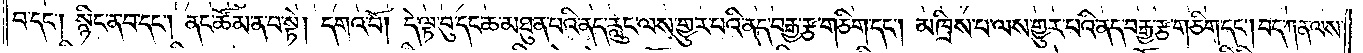བ་དང༌། སྙིང་ན་བ་དང༌། ནང་ཚོམ་ན་བ་སྟེ། དགའ་བོ། དེ་ལྟ་བུ་དང་ཆ་མཐུན་པའི་ནད་རླུང་ལས་གྱུར་པའི་ནད་བརྒྱ་རྩ་གཅིག་དང༌། མཁྲིས་པ་ལས་གྱུར་པའི་ནད་བརྒྱ་རྩ་གཅིག་དང༌། བད་ཀན་ལས་
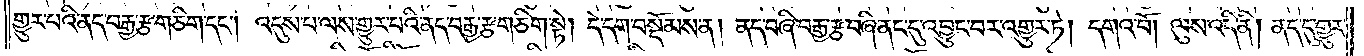གྱུར་པའི་ནད་བརྒྱ་རྩ་གཅིག་དང༌། འདུས་པ་ལས་གྱུར་པའི་ནད་བརྒྱ་རྩ་གཅིག་སྟེ། དེ་དག་བསྡོམས་ན། ནད་བཞི་བརྒྱ་རྩ་བཞི་ནང་དུ་འབྱུང་བར་འགྱུར་ཏེ། དགའ་བོ། ལུས་འདི་ནི། ནད་དུ་གྱུར་
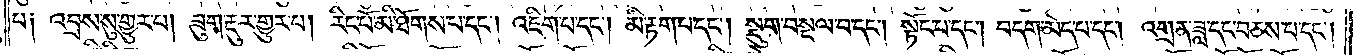པ༑ འབྲས་སུ་གྱུར་པ། ཟུག་རྔུར་གྱུར་པ། རིང་པོ་མི་ཐོགས་པ་དང༌། འཇིག་པ་དང༌། མི་རྟག་པ་དང༌། སྡུག་བསྔལ་བ་དང༌། སྟོང་པ་དང༌། བདག་མེད་པ་དང༌། འགྲན་ཟླ་དང་བཅས་པ་དང༌།
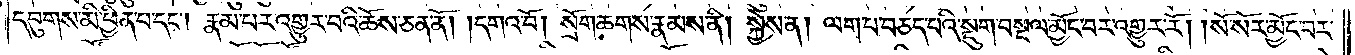དབུགས་མི་ཕྱིན་པ་དང༌། རྣམ་པར་འགྱུར་བའི་ཆོས་ཅན་ནོ། །དགའ་བོ། སྲོག་ཆགས་རྣམས་ནི། སྐྱེས་ན། ལག་པ་བཅད་པའི་སྡུག་བསྔལ་མྱོང་བར་འགྱུར་རོ། །སོ་སོར་མྱོང་བར་
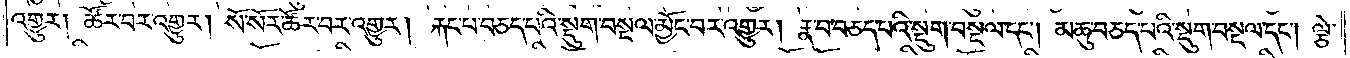འགྱུར། ཚོར་བར་འགྱུར། སོ་སོར་ཚོར་བར་འགྱུར། རྐང་པ་བཅད་པའི་སྡུག་བསྔལ་མྱོང་བར་འགྱུར། རྣ་བ་བཅད་པའི་སྡུག་བསྔལ་དང༌། མཆུ་བཅད་པའི་སྡུག་བསྔལ་དང༌། ལྕེ་
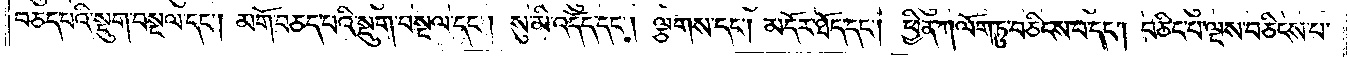བཅད་པའི་སྡུག་བསྔལ་དང༌། མགོ་བཅད་པའི་སྡུག་བསྔལ་དང༌། སུ་མི་འདོད་དང༌། ལྕགས་དང༌། མདོར་ཐོད་དང༌། ཕྱིན་ཀ་ལོག་ཏུ་བཅིངས་པ་དང༌། བཅིང་བ་ལྔས་བཅིངས་པ་
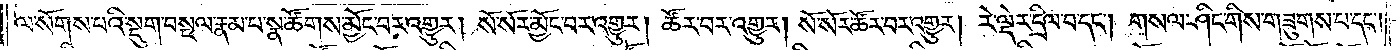ལ་སོགས་པའི་སྡུག་བསྔལ་རྣམ་པ་སྣ་ཚོགས་མྱོང་བར་འགྱུར། སོ་སོར་མྱོང་བར་འགྱུར། ཚོར་བར་འགྱུར། སོ་སོར་ཚོར་བར་འགྱུར། རེ་ལྡེར་དྲིལ་བ་དང༌། གསལ་ཤིང་གིས་གཟུགས་བ་དང༌།
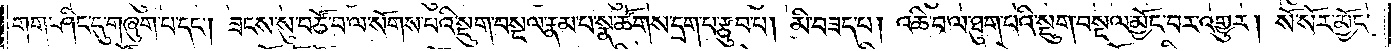གག་ཤིང་དུ་གཞུག་པ་དང༌། ཟངས་སུ་བཙོ་བ་ལ་སོགས་པའི་སྡུག་བསྔལ་རྣམ་པ་སྣ་ཚོགས་དྲག་པ་རྩུབ་པ། མི་བཟད་པ། འཆི་བ་ལ་ཐུག་པའི་སྡུག་བསྔལ་མྱོང་བར་འགྱུར། སོ་སོར་མྱོང་
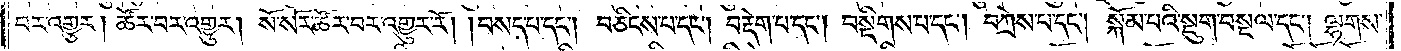བར་འགྱུར། ཚོར་བར་འགྱུར། སོ་སོར་ཚོར་བར་འགྱུར་རོ། །བསད་པ་དང༌། བཅིངས་བ་དང༌། བརྡེག་པ་དང༌། བསྡིགས་པ་དང༌། བཀྲེས་པ་དང༌། སྐོམ་པའི་སྡུག་བསྔལ་དང༌། ལྷགས་
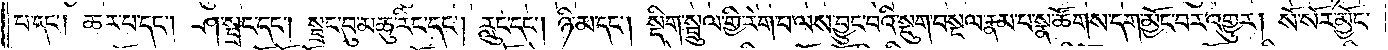པ་དང༌། ཆར་པ་དང༌། ཤ་སྦྲང་དང༌། སྦྲང་བུ་མཆུ་རིང་དང༌། རླུང་དང༌། ཉི་མ་དང༌། སྡིག་སྦྲུལ་གྱི་རེག་པ་ལས་བྱུང་བའི་སྡུག་བསྔལ་རྣམ་པ་སྣ་ཚོགས་དག་མྱོང་བར་འགྱུར། སོ་སོར་མྱོང་
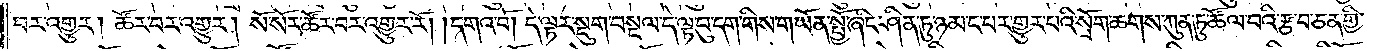བར་འགྱུར། ཚོར་བར་འགྱུར། སོ་སོར་ཚོར་བར་འགྱུར་རོ། །དགའ་བོ། དེ་ལྟར་སྡུག་བསྔལ་དེ་ལྟ་བུ་དག་གིས་གཡོན་སྤྱོ་ཞིང་ཤིན་ཏུ་ཉམ་ང་བར་གྱུར་པའི་སྲོག་ཆགས་ཀུན་ཏུ་ཚོལ་བའི་རྩ་བ་ཅན་གྱི་
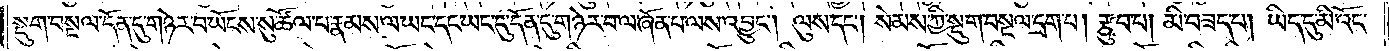སྡུག་བསྔལ་དོན་དུ་གཉེར་བ་ཡོངས་སུ་ཚོལ་པ་རྣམས་ལ་ཡང་དང་ཡང་དུ་དོན་དུ་གཉེར་བ་ལ་ཞོན་པ་ལས་འབྱུང༌། ལུས་དང༌། སེམས་ཀྱི་སྡུག་བསྔལ་དྲག་པ། རྩུབ་པ། མི་བཟད་པ་དང༌། ཡིད་དུ་མི་འོང་
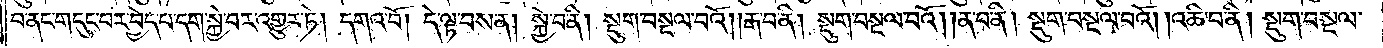བ་ནང་གདུང་བར་བྱེད་པ་དག་སྐྱེ་བར་འགྱུར་ཏེ། དགའ་བོ། དེ་ལྟ་བས་ན། སྐྱེ་བ་ནི། སྡུག་བསྔལ་བའོ། །རྒ་བ་ནི། སྡུག་བསྔལ་བའོ། །ན་བ་ནི། སྡུག་བསྔལ་བའོ། །འཆི་བ་ནི། སྡུག་བསྔལ་
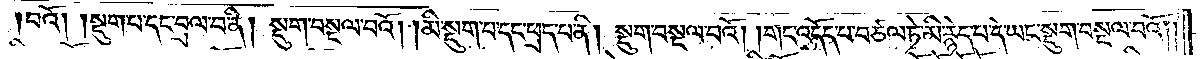བའོ། །སྡུག་པ་དང་བྲལ་བ་ནི། སྡུག་བསྔལ་བའོ། །མི་སྡུག་པ་དང་ཕྲད་པ་ནི། སྡུག་བསྔལ་བའོ། །གང་འདོད་པ་བཙལ་ཏེ་མི་རྙེད་པ་དེ་ཡང་སྡུག་བསྔལ་བའོ། །
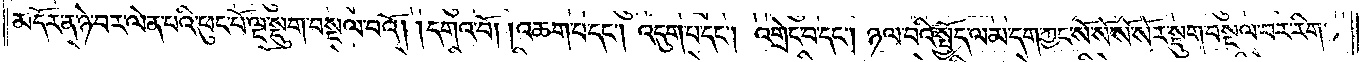མདོར་ན་ཉེ་བར་ལེན་པའི་ཕུང་པོ་ལྔ་སྡུག་བསྔལ་བའོ། །དགའ་བོ། འཆག་པ་དང༌། འདུག་པ་དང༌། འགྲེང་བ་དང༌། ཉལ་བའི་སྤྱོད་ལམ་དག་ཀྱང་སོ་སོ་སོར་སྡུག་བསྔལ་བར་རིག་
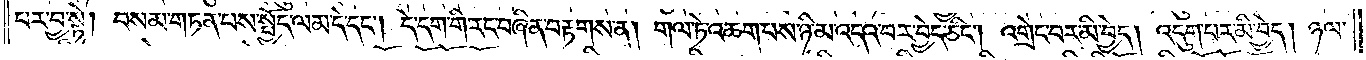བར་བྱ་སྟེ། བསམ་གཏན་པས་སྤྱོད་ལམ་དེ་དང༌། དེ་དག་གི་རང་བཞིན་བརྟགས་ན། གལ་ཏེ་འཆག་པས་ཉི་མ་འདའ་བར་བྱེད་ཅིང༌། འགྲེང་བར་མི་བྱེད། འདུག་པར་མི་བྱེད། ཉལ་
